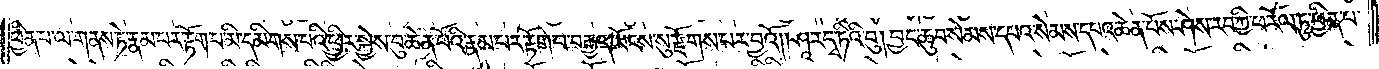ཕྱིན་པ་ལ་གནས་ཏེ་རྣམ་པར་རྟོག་པ་མི་དམིགས་པའི་ཕྱིར་སྐྱེས་བུ་ཆེན་པོའི་རྣམ་པར་རྟོག་པ་བརྒྱད་ཡོངས་སུ་རྫོགས་པར་བྱའོ༎ ཤཱ་ར་དྭ་ཏིའི་བུ། བྱང་ཆུབ་སེམས་དཔའ་སེམས་དཔའ་ཆེན་པོས་ཤེས་རབ་ཀྱི་ཕ་རོལ་ཏུ་ཕྱིན་པ་
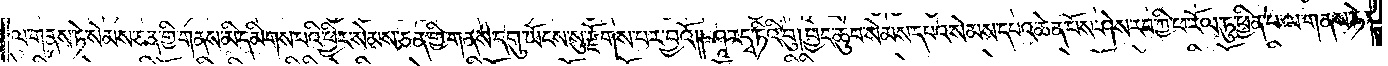ལ་གནས་ཏེ་སེམས་ཅན་གྱི་གནས་མི་དམིགས་པའི་ཕྱིར་སེམས་ཅན་གྱི་གནས་དགུ་ཡོངས་སུ་རྫོགས་པར་བྱའོ༎ ཤཱ་ར་དྭ་ཏིའི་བུ། བྱང་ཆུབ་སེམས་དཔའ་སེམས་དཔའ་ཆེན་པོས་ཤེས་རབ་ཀྱི་ཕ་རོལ་ཏུ་ཕྱིན་པ་ལ་གནས་ཏེ་
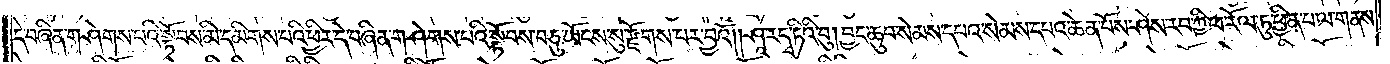དེ་བཞིན་གཤེགས་པའི་སྟོབས་མི་དམིགས་པའི་ཕྱིར་དེ་བཞིན་གཤེགས་པའི་སྟོབས་བཅུ་ཡོངས་སུ་རྫོགས་པར་བྱའོ༎ ཤཱ་ར་དྭ་ཏིའི་བུ། བྱང་ཆུབ་སེམས་དཔའ་སེམས་དཔའ་ཆེན་པོས་ཤེས་རབ་ཀྱི་ཕ་རོལ་ཏུ་ཕྱིན་པ་ལ་གནས་
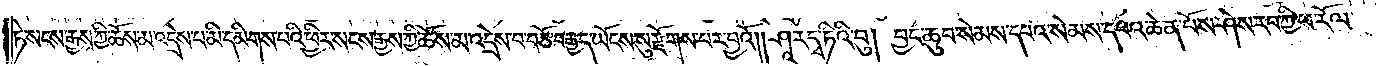ཏེ་སངས་རྒྱས་ཀྱི་ཆོས་མ་འདྲེས་པ་མི་དམིགས་པའི་ཕྱིར་སངས་རྒྱས་ཀྱི་ཆོས་མ་འདྲེས་བ་བཅོ་བརྒྱད་ཡོངས་སུ་རྫོགས་པར་བྱའོ༎ ཤཱ་ར་དྭ་ཏིའི་བུ། བྱང་ཆུབ་སེམས་དཔའ་སེམས་དཔའ་ཆེན་པོས་ཤེས་རབ་ཀྱི་ཕ་རོལ་
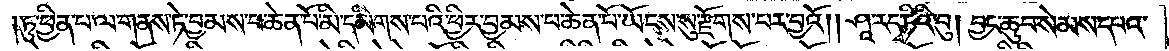ཏུ་ཕྱིན་པ་ལ་གནས་ཏེ་བྱམས་པ་ཆེན་པོ་མི་དམིགས་པའི་ཕྱིར་བྱམས་པ་ཆེན་པོ་ཡོངས་སུ་རྫོགས་པར་བྱའོ། །ཤཱ་ར་དྭ་ཏིའི་བུ། བྱང་ཆུབ་སེམས་དཔའ་
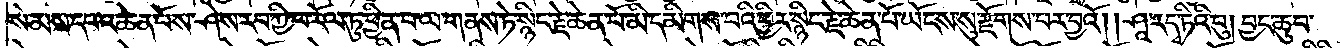སེམས་དཔའ་ཆེན་པོས་ཤེས་རབ་ཀྱི་ཕ་རོལ་ཏུ་ཕྱིན་པ་ལ་གནས་ཏེ་སྙིང་རྗེ་ཆེན་པོ་མི་དམིགས་པའི་ཕྱིར་སྙིང་རྗེ་ཆེན་པོ་ཡོངས་སུ་རྫོགས་པར་བྱའོ། །ཤཱ་ར་དྭ་ཏིའི་བུ། བྱང་ཆུབ་
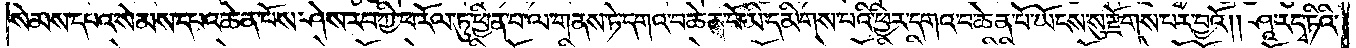སེམས་དཔའ་སེམས་དཔའ་ཆེན་པོས་ཤེས་རབ་ཀྱི་ཕ་རོལ་ཏུ་ཕྱིན་པ་ལ་གནས་ཏེ་དགའ་བ་ཆེན་པོ་མི་དམིགས་པའི་ཕྱིར་དགའ་བ་ཆེན་པོ་ཡོངས་སུ་རྫོགས་པར་བྱའོ། །ཤཱ་ར་དྭ་ཏིའི་
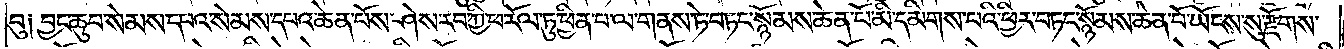བུ། བྱང་ཆུབ་སེམས་དཔའ་སེམས་དཔའ་ཆེན་པོས་ཤེས་རབ་ཀྱི་ཕ་རོལ་ཏུ་ཕྱིན་པ་ལ་གནས་ཏེ་བཏང་སྙོམས་ཆེན་པོ་མི་དམིགས་པའི་ཕྱིར་བཏང་སྙོམས་ཆེན་པོ་ཡོངས་སུ་རྫོགས་
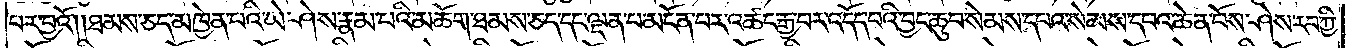པར་བྱའོ། །ཐམས་ཅད་མཁྱེན་པའི་ཡེ་ཤེས་རྣམ་པའི་མཆོག་ཐམས་ཅད་དང་ལྡན་པ་མངོན་བར་འཚང་རྒྱ་བར་འདོད་པའི་བྱང་ཆུབ་སེམས་དཔའ་སེམས་དཔའ་ཆེན་པོས་ཤེས་རབ་ཀྱི་
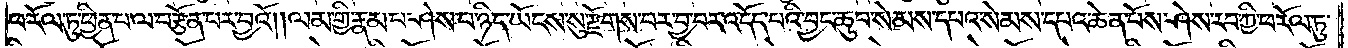ཕ་རོལ་ཏུ་ཕྱིན་པ་ལ་བརྩོན་པར་བྱའོ། །ལམ་གྱི་རྣམ་པ་ཤེས་པ་ཉིད་ཡོངས་སུ་རྫོགས་པར་བྱ་བར་འདོད་པའི་བྱང་ཆུབ་སེམས་དཔའ་སེམས་དཔའ་ཆེན་པོས་ཤེས་རབ་ཀྱི་ཕ་རོལ་ཏུ་
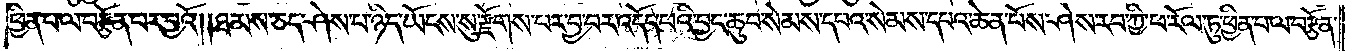ཕྱིན་པ་ལ་བརྩོན་པར་བྱའོ། །ཐམས་ཅད་ཤེས་པ་ཉིད་ཡོངས་སུ་རྫོགས་པར་བྱ་བར་འདོད་པའི་བྱང་ཆུབ་སེམས་དཔའ་སེམས་དཔའ་ཆེན་པོས་ཤེས་རབ་ཀྱི་ཕ་རོལ་ཏུ་ཕྱིན་པ་ལ་བརྩོན་
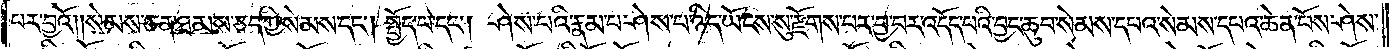པར་བྱའོ། །སེམས་ཅན་ཐམས་ཅད་ཀྱི་སེམས་དང༌། སྤྱོད་པ་དང༌། ཤེས་པའི་རྣམ་པ་ཤེས་པ་ཉིད་ཡོངས་སུ་རྫོགས་པར་བྱ་བར་འདོད་པའི་བྱང་ཆུབ་སེམས་དཔའ་སེམས་དཔའ་ཆེན་པོས་ཤེས་
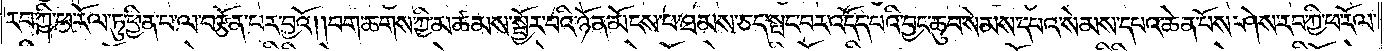རབ་ཀྱི་ཕ་རོལ་ཏུ་ཕྱིན་པ་ལ་བརྩོན་པར་བྱའོ། །བག་ཆགས་ཀྱི་མཚམས་སྦྱོར་བའི་ཉོན་མོངས་པ་ཐམས་ཅད་སྤང་བར་འདོད་པའི་བྱང་ཆུབ་སེམས་དཔའ་སེམས་དཔའ་ཆེན་པོས་ཤེས་རབ་ཀྱི་ཕ་རོལ་
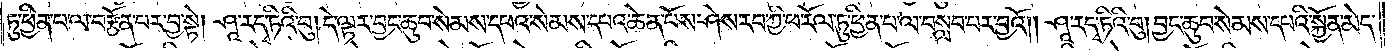ཏུ་ཕྱིན་པ་ལ་བརྩོན་པར་བྱ་སྟེ། ཤཱ་ར་དྭ་ཏིའི་བུ། དེ་ལྟར་བྱང་ཆུབ་སེམས་དཔའ་སེམས་དཔའ་ཆེན་པོས་ཤེས་རབ་ཀྱི་ཕ་རོལ་ཏུ་ཕྱིན་པ་ལ་བསླབ་པར་བྱའོ། །ཤཱ་ར་དྭ་ཏིའི་བུ། བྱང་ཆུབ་སེམས་དཔའི་སྐྱོན་མེད་
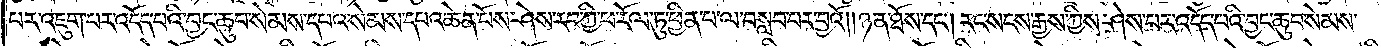པར་འཇུག་པར་འདོད་པའི་བྱང་ཆུབ་སེམས་དཔའ་སེམས་དཔའ་ཆེན་པོས་ཤེས་རབ་ཀྱི་ཕ་རོལ་ཏུ་ཕྱིན་པ་ལ་བསླབ་པར་བྱའོ། །ཉན་ཐོས་དང༌། རང་སངས་རྒྱས་ཀྱིས་ཤེས་པར་འདོད་པའི་བྱང་ཆུབ་སེམས་
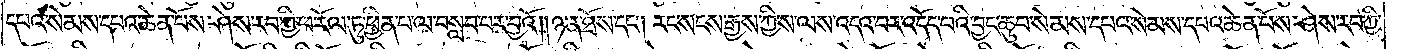དཔའ་སེམས་དཔའ་ཆེན་པོས་ཤེས་རབ་ཀྱི་ཕ་རོལ་ཏུ་ཕྱིན་པ་ལ་བསླབ་པར་བྱའོ། །ཉན་ཐོས་དང༌། རང་སངས་རྒྱས་ཀྱིས་ལས་འདའ་བར་འདོད་པའི་བྱང་ཆུབ་སེམས་དཔའ་སེམས་དཔའ་ཆེན་པོས་ཤེས་རབ་ཀྱི་
